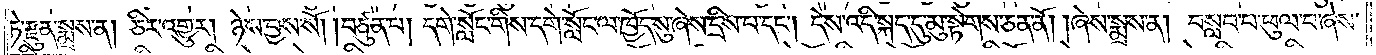ཏེ་རྫུན་སྨྲས་ན། ཅིར་འགྱུར། ཉེས་བྱས་སོ། །བཙུན་པ། དགེ་སློང་གིས་དགེ་སློང་ལ་ཁྱོད་སུ་ཞེས་དྲིས་པ་དང༌། དེས་འདི་སྐད་དུ་མུ་སྟེགས་ཅན་ནོ། །ཞེས་སྨྲས་ན། བསླབ་པ་ཕུལ་བ་ཞེས་
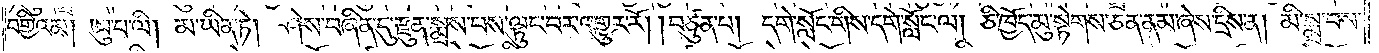བགྱིའམ། ཨུ་པ་ལི། མ་ཡིན་ཏེ། ཤེས་བཞིན་དུ་རྫུན་སྨྲས་པས་ལྟུང་བར་འགྱུར་རོ། །བཙུན་པ། དགེ་སློང་གིས་དགེ་སློང་ལ། ཅི་ཁྱོད་མུ་སྟེགས་ཅན་ནམ་ཞེས་དྲིས་ན། མི་སྨྲ་བས་
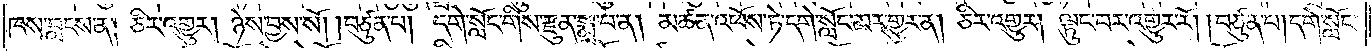ཁས་བླངས་ན། ཅིར་འགྱུར། ཉེས་བྱས་སོ། །བཙུན་པ། དགེ་སློང་གིས་རྫུན་སྨྲ་བ་ན། མཚན་འཕོས་ཏེ་དགེ་སློང་མར་གྱུར་ན། ཅིར་འགྱུར། ལྟུང་བར་འགྱུར་རོ། །བཙུན་པ། དགེ་སློང་
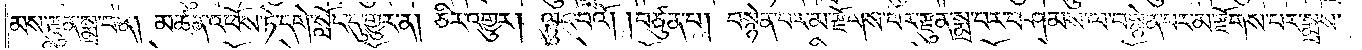མས་རྫུན་སྨྲ་བ་ན། མཚན་འཕོས་ཏེ་དགེ་སློང་དུ་གྱུར་ན། ཅིར་འགྱུར། ལྟུང་བའོ། །བཙུན་པ། བསྙེན་པར་མ་རྫོགས་པར་རྫུན་སྨྲ་བར་བཤམས་ལ་བསྙེན་པར་མ་རྫོགས་པར་སྨྲས་
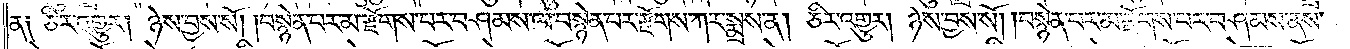ན༑ ཅིར་འགྱུར། ཉེས་བྱས་སོ། །བསྙེན་པར་མ་རྫོགས་པར་བཤམས་ལ་བསྙེན་པར་རྫོགས་ཀར་སྨྲས་ན། ཅིར་འགྱུར། ཉེས་བྱས་སོ། །བསྙེན་པར་མ་རྫོགས་པར་བཤམས་ནས་
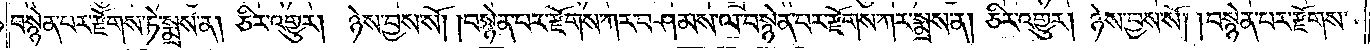བསྙེན་པར་རྫོགས་ཏེ་སྨྲས་ན། ཅིར་འགྱུར། ཉེས་བྱས་སོ། །བསྙེན་པར་རྫོགས་ཀར་བཤམས་ལ་བསྙེན་པར་རྫོགས་ཀར་སྨྲས་ན། ཅིར་འགྱུར། ཉེས་བྱས་སོ། །བསྙེན་པར་རྫོགས་
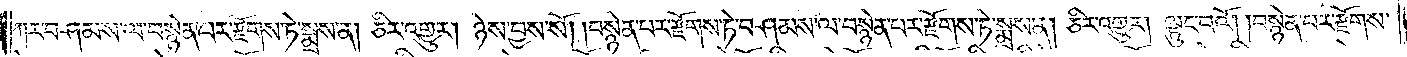ཀར་བཤམས་ལ་བསྙེན་པར་རྫོགས་ཏེ་སྨྲས་ན། ཅིར་འགྱུར། ཉེས་བྱས་སོ། །བསྙེན་པར་རྫོགས་ཏེ་བཤམས་ལ་བསྙེན་པར་རྫོགས་ཏེ་སྨྲས་ན། ཅིར་འགྱུར། ལྟུང་བའོ། །བསྙེན་པར་རྫོགས་
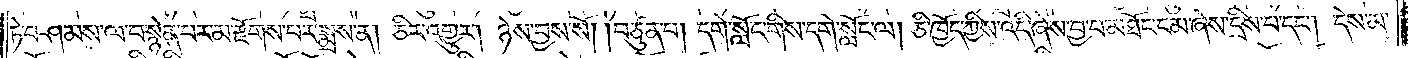ཏེ་བཤམས་ལ་བསྙེན་པར་མ་རྫོགས་པར་སྨྲས་ན། ཅིར་འགྱུར། ཉེས་བྱས་སོ། །བཙུན་པ། དགེ་སློང་གིས་དགེ་སློང་ལ། ཅི་ཁྱོད་ཀྱིས་འདི་ཞེས་བྱ་བ་མཐོང་ངམ་ཞེས་དྲིས་པ་དང༌། དེས་མ་
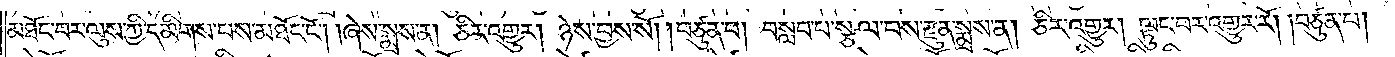མཐོང་བར་ལུས་ཀྱི་དམིགས་པས་མཐོང་ངོ༌། །ཞེས་སྨྲས་ན། ཅིར་འགྱུར། ཉེས་བྱས་སོ། །བཙུན་པ། བསླབ་པ་སྩལ་བས་རྫུན་སྨྲས་ན། ཅིར་འགྱུར། ལྟུང་བར་འགྱུར་རོ། །བཙུན་པ།
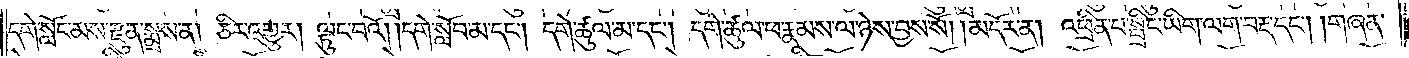དགེ་སློང་མས་རྫུན་སྨྲས་ན། ཅིར་འགྱུར། ལྟུང་བའོ། །དགེ་སློབ་མ་དང༌། དགེ་ཚུལ་མ་དང༌། དགེ་ཚུལ་ཕ་རྣམས་ལ་ཉེས་བྱས་སོ། །མདོར་ན། འཕྲིན་པ་སྤྲིང་ཡིག་ལག་བརྡ་དང༌། །གཞན་
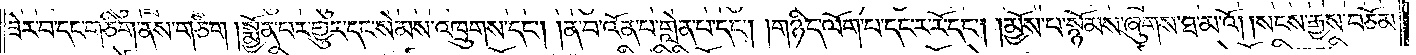ཟེར་བ་དང་གཅིག་ནས་གཅིག །སྨྱོན་པར་གྱུར་དང་སེམས་འཁྲུགས་དང༌། །ན་བ་འོན་པ་གླེན་པ་དང༌། །གཉིད་ལོག་པ་དང་ར་རོ་དང༌། །མྱོས་པ་སྙོམས་ཞུགས་ཐ་མ་འོ། །སངས་རྒྱས་བཅོམ་
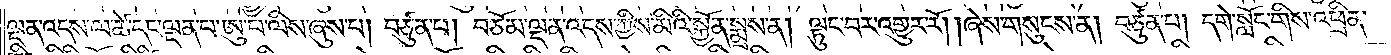ལྡན་འདས་ལ་ཚེ་དང་ལྡན་པ་ཨུ་པ་ལིས་ཞུས་པ། བཙུན་པ། བཅོམ་ལྡན་འདས་ཀྱིས་མིའི་སྐྱོན་སྨྲས་ན། ལྟུང་བར་འགྱུར་རོ། །ཞེས་གསུངས་ན། བཙུན་པ། དགེ་སློང་གིས་འཕྲིན་
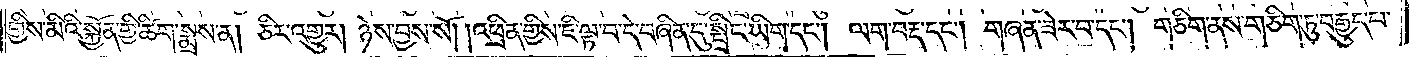གྱིས་མིའི་སྐྱོན་གྱི་ཚིག་སྨྲས་ན། ཅིར་འགྱུར། ཉེས་བྱས་སོ། །འཕྲིན་གྱིས་ཇི་ལྟ་བ་དེ་བཞིན་དུ་སྤྲིང་ཡིག་དང༌། ལག་བརྡ་དང༌། གཞན་ཟེར་བ་དང༌། གཅིག་ནས་གཅིག་ཏུ་བརྒྱུད་པ་
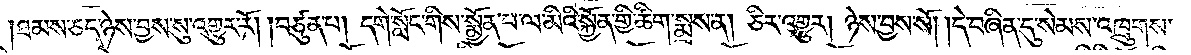ཐམས་ཅད་ཉེས་བྱས་སུ་འགྱུར་རོ། །བཙུན་པ། དགེ་སློང་གིས་སྨྱོན་པ་ལ་མིའི་སྐྱོན་གྱི་ཚིག་སྨྲས་ན། ཅིར་འགྱུར། ཉེས་བྱས་སོ། །དེ་བཞིན་དུ་སེམས་འཁྲུགས་
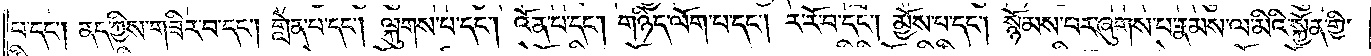པ་དང༌། ནད་ཀྱིས་གཟིར་བ་དང༌། གླེན་པ་དང༌། ལྐུགས་པ་དང༌། འོན་པ་དང༌། གཉིད་ལོག་པ་དང༌། ར་རོ་བ་དང༌། མྱོས་པ་དང༌། སྙོམས་པར་ཞུགས་པ་རྣམས་ལ་མིའི་སྐྱོན་གྱི་
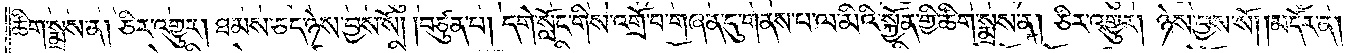ཚིག་སྨྲས་ན། ཅིར་འགྱུར། ཐམས་ཅད་ཉེས་བྱས་སོ། །བཙུན་པ། དགེ་སློང་གིས་འགྲོ་བ་གཞན་དུ་གནས་པ་ལ་མིའི་སྐྱོན་གྱི་ཚིག་སྨྲས་ན། ཅིར་འགྱུར། ཉེས་བྱས་སོ།    །མདོར་ན།
